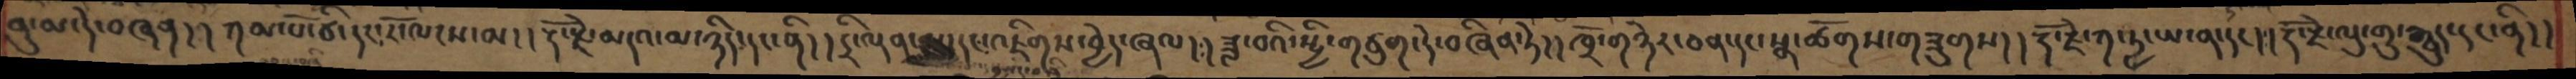ནུ་མ་དེ་བཞན། །ཀམ་པོ་ཙི་དང་རོ་ལངས་མ། །རྡོ་རྗེ་མདའ་མ་ཉིད་དང་ནི། །དྲི་ལྡན་མ་དང་འཇིགས་བྱེད་ཞལ། །ཟླ་བའི་སྤྱི་གཙུག་དེ་བཞིན་ཏེ། །ཁྲོ་གཉེར་ཅན་དང་སྣ་ཚོགས་གཟུགས། །རྡོ་རྗེ་ཀ་ཏྱ་ཡ་ན་དང། །རྡོ་རྗེ་ལུ་གུ་རྒྱུད་དང་ནི།།
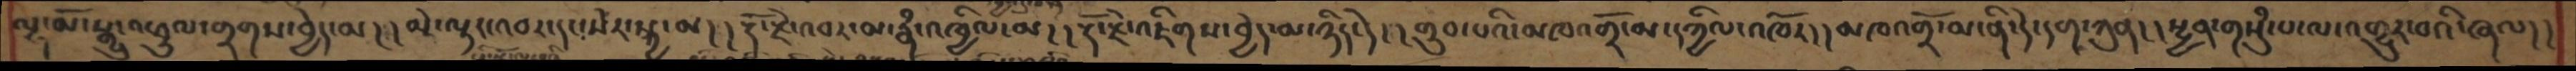ལྷ་མོ་སྒྱུ་འཕྲུལ་གྲགས་བྱེད་མ། །མེ་ལྟར་འབར་དང་སེར་སྐྱ་མ། །རྡོ་རྗེ་འབར་མ་རྣཾ་འཁྱིལ་མ། །རྡོ་རྗེ་འཇིགས་བྱེད་མ་ཉིད་དེ། །གྲུབ་པའི་མཁའགྲོ་མ་དཀྱིལ་འཁོར། །མཁའགྲོ་མ་ནི་དེ་དག་ཀུན། །སྤྱན་གསུཾ་པ་ལ་འགྱུར་བའི་ཞལ།།
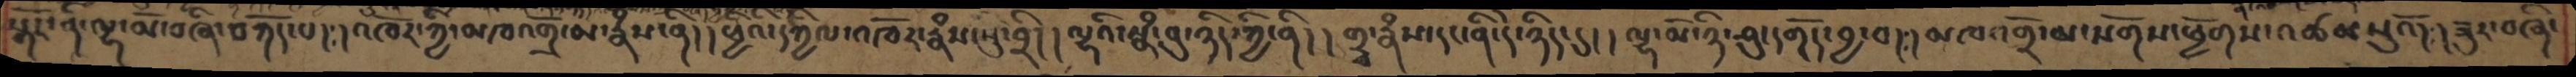སྒོར་ནི་ལྷ་མོ་བཞི་བཀོད་པ། །འཁོར་ཀྱི་མཁའགྲོ་མ་རྣཾས་ནི། །ཕྱིའི་དཀྱིལ་འཁོར་རྣཾས་སུ་བྲི། །ལྷའི་སྣཾ་བུ་ཉིད་ཀྱི་ནི། །གྲྭ་རྣཾས་དང་ནི་དེ་ཉིད་དུ། །ལྷ་མོ་ཉི་ཤུ་དགོད་བྱ་བ། །མཁའགྲོ་མ་སོགས་ཕྱོགས་འཚམསུའོ། །ཟུར་བཞི་
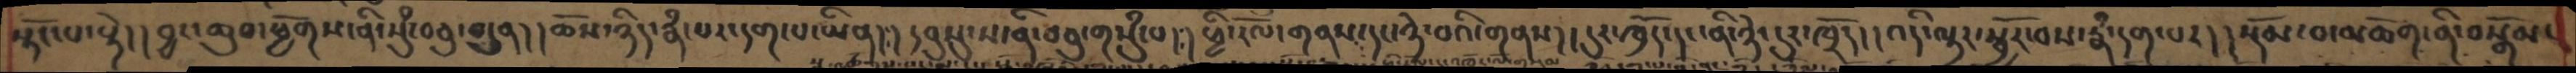སྟོང་པ་སྟེ། །བྱང་ཆུབ་ཕྱོགས་ནི་སུཾ་བཅུ་བདུན། །ཆོས་ཉིད་རྣྃ་པར་དག་པ་ཡིན། །དབུསུ་ས་ནི་བཅུ་གསུཾ་པ། །ཕྱི་རོལ་གནས་དང་ཉེ་བའི་གནས། །དུར་ཁྲོད་དང་ནི་ཉེ་དུར་ཁྲོད། །འདི་ལྟར་སྦྱོར་བས་རྣཾ་དག་པར། །སྡོམ་བ་མཆོག་ནི་བསྒོམ་
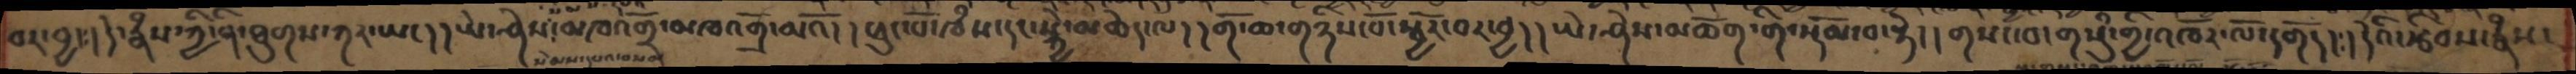བར་བྱ། །དེ་རྣཾས་ཀྱི་ནི་ཐུགས་ཀར་ཡང། །ཡེ་ཤེས་མཁའགྲོ་མཁའགྲོ་མའོ། །ཕུང་པོ་ཁཾས་དང་སྐྱེ་མཆེད་ལ། །གོ་ཆ་གཉིས་པོ་སྦྱོར་བར་བྱ།།ཡེ་ཤེས་མཆོག་གི་སྡོམ་བ་སྟེ། །གསང་བ་གསུཾ་གྱི་འཁོར་ལོ་དགོད། །དེའི་རྩིབས་རྣཾས་
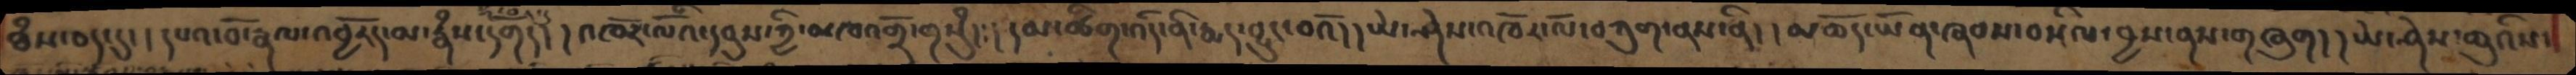ཐཾས་ཅད་དུ། །དཔའ་བོ་རྣལ་འབྱོརད་མ་རྣཾས་དགོད། །འཁོར་ལོའི་དབུས་ཀྱི་མཁའགྲོ་གསུཾ། །དམ་ཚིག་འདི་ནི་རྨད་བྱུང་བའོ། །ཡེ་ཤེས་འཁོར་ལོ་བཀུག་ནས་ནི། །མཆོད་ཡོན་ཞབས་བསིལ་བྱས་ནས་གཞུག། །ཡེ་ཤེས་ཆུའིས་
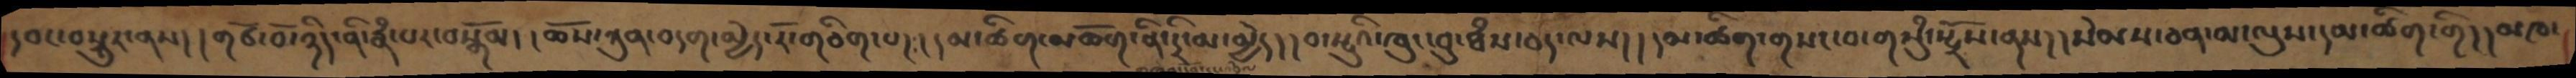དབང་བསྐུར་ནས། །གཙོ་བོ་ཉིད་ནི་རྣཾ་པར་བསྒོམ། །ཆོས་ཀུན་བདག་མྱེད་རོ་གཅིག་པ། །དམ་ཚིག་མཆོག་ནི་དྲི་མ་མྱེད། །བ་སྤུའི་ཁུང་བུ་ཐཾས་ཅད་ལས། །དམ་ཚིག་གསང་བ་གསུཾ་སྤྲོས་ནས། །སེམས་ཅན་མ་ལུས་དམ་ཚིག་གི། །མཁ་
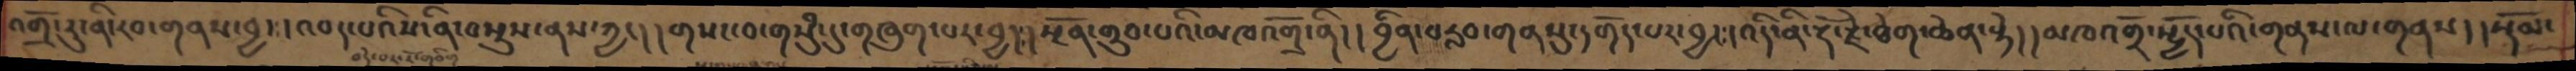འགྲོ་རུ་ནི་རབ་གནས་བྱ། །འབད་པའིས་ནི་བསྡུས་ནས་ཀྱང། །གསང་བ་གསུཾ་དུ་གཞུག་པར་བྱ། །སྔོན་གྲུབ་པའི་མཁའགྲོ་ནི། །བྱིན་བརླབ་གནསུ་དགོད་པར་བྱ། །འདི་ནི་རྡོ་རྗེ་ཐེག་ཆེན་སྟེ། །མཁའགྲོ་སྤྱོད་པའི་གནས་ལ་གནས། །སྡོམ་
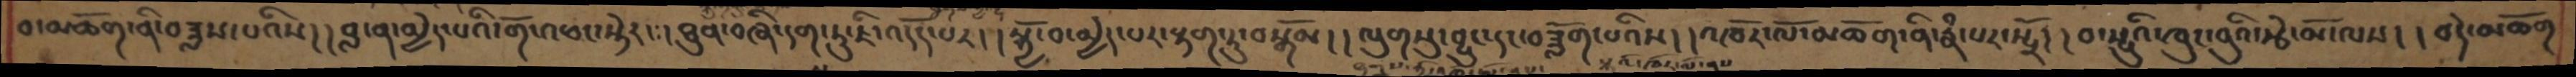བ་མཆོག་ནི་བཟླས་པའིས། །བླ་ན་མྱེད་པའི་གོ་འཕང་སྟེར། །ཐུན་བཞི་དག་ཏུ་ཇི་འདོད་པར། །སྐྱོ་བ་མྱེད་པར་རྟག་ཏུ་བསྒོམ། །ལུགསུ་བྱུང་དང་བཟློག་པའིས། །འཁོར་ལོ་མཆོག་ནི་རྣྃ་པར་སྤྲོ། །བ་སྤུའི་ཁུང་བུའི་རྩེ་མོ་ལས། །བདེ་མཆོག
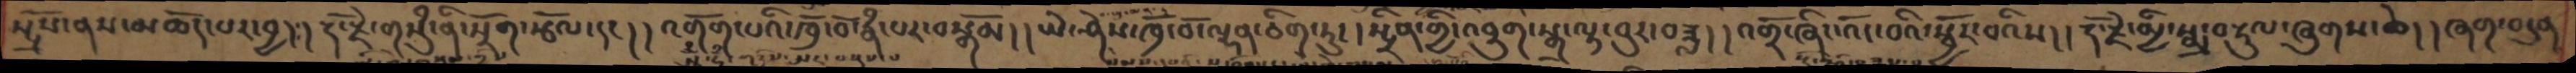སྤྲོས་ནས་མཆོད་པར་བྱ། །རྡོ་རྗེ་གསུཾ་ནི་སྲོག་རྩོལ་དང། །འགོག་པའི་ཁྲོ་བོ་རྣཾ་པར་བསྒོམ། །ཡེ་ཤེས་ཁྲོ་བོ་ལྷན་ཅིག་ཏུ། །སྤྲིན་གྱི་འབྲུག་སྒྲ་ལྟ་བུར་བཟླ། །འགྲོ་ཞིང་འོང་བའི་སྦྱོར་བའིས། །རྡོ་རྗེ་མྱི་སྨྲ་བརྟུལ་ཞུགས་ཆེ། །ཞག་བདུན
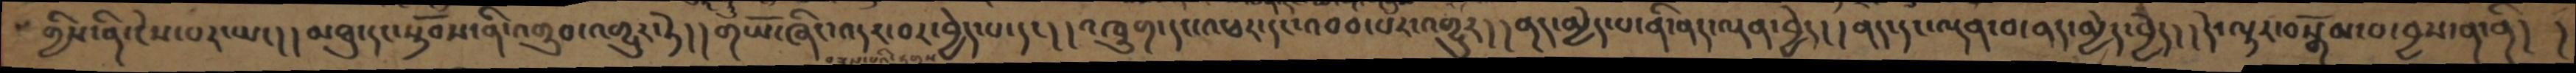གྱིས་ནི་ངེས་པར་ཡང། །མཐུ་དང་སྟོབས་ནི་འགྲུབ་འགྱུར་ཏེ། །གཡོ་ཞིང་འདར་བར་བྱེད་པ་དང། །འཁྲུག་དང་འཕར་དང་འབབ་པར་འགྱུར། །ནད་མྱེད་པ་ནི་ནད་ལྡན་བྱེད། །ནད་དང་ལྡན་བ་ནད་མྱེད་བྱེད། །དེ་ལྟར་བསྒོམ་བ་བྱས་ན་ནི། །
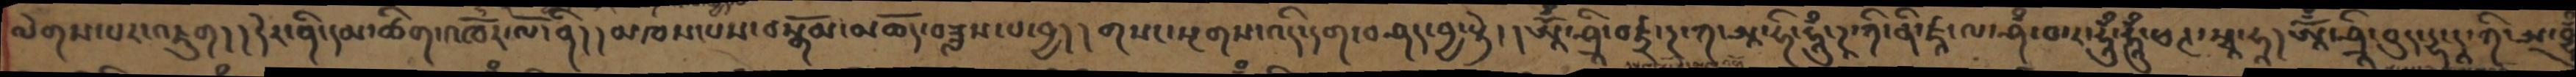ལེགས་པར་འཇུག། །དེར་ནི་དམ་ཚིག་འཁོར་ལོ་ནི། །མཁས་པས་བསྒོམ་མཆོད་བཟླས་པ་བྱ། །གསང་སྔགས་འདི་དག་བཤད་བྱ་སྟེ། །ཨཱོྃ་ཤྲི་བཛྲ་ཌ་ཀ་ཨཱ་ཧི་ཧཱུྃ་ཌཱ་ཀི་ནི་ཛཱ་ལ་ཤཾ་བ་ར་ཧཱུྃ་ཧཱུྃ་ཕཊ་སྭཱ་ཧཱ། ཨཱོྃ་ཤྲི་བུད་དྷ་དཱ་ཀི་ཨ་བྷུྃ
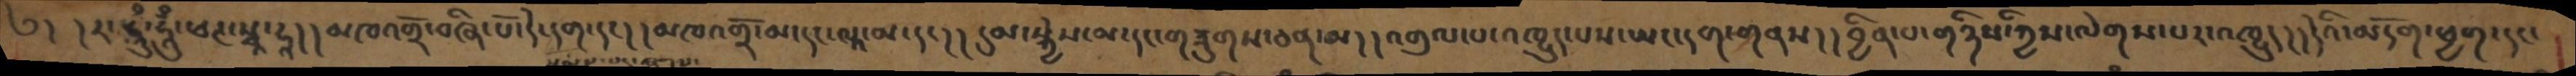༄། །ར་ཧཱུྃ་ཧཱུྃ་ཕཊ་སྭཱ་ཧཱ། །མཁའགྲོ་བཞི་པོ་དེ་དག་དང། །མཁའགྲོ་མ་དང་ལཱ་མ་དང། །དུམ་སྐྱེས་མ་དང་གཟུགས་ཅན་མ། །འགུལ་པ་འཁྱུད་པས་ཡང་དག་གནས། །བྱིན་པ་གཉིས་ཀྱིས་ལེགས་པར་འཁྱུད། །དེའི་མདོག་ཕྱག་དང་
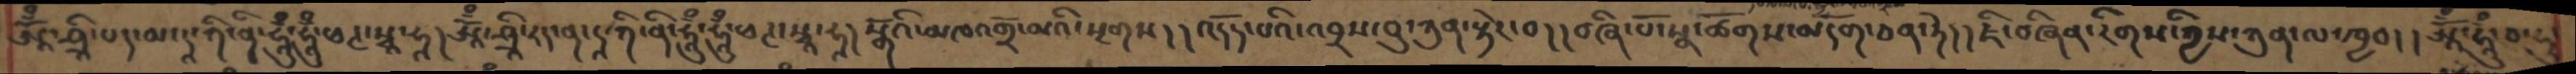ཨཱོྃ་ཤྲི་པད་མ་དཱ་ཀི་ཧཱུྃ་ཧཱུྃ་ཕཊ་སྭཱ་ཧཱ། ཨཱོྃ་ཤྲི་རད་ནཱ་དཱ་ཀི་ནི་ཧཱུྃ་ཧཱུྃ་ཕཊ་སྭཱ་ཧཱ། སྒོའི་མཁའགྲོ་མའི་སྔགས། །འདོད་པའི་འབྲས་བུ་ཀུན་སྡེར་བ། །བཞི་པོ་སྣ་ཚོགས་མདོག་ཅན་ཏེ། །ཇི་བཞིན་རིགས་ཀྱིས་ཀུན་ལ་ཁྱབ། །ཨཱོྃ་ཧཱུྃ་བ་དྷུ་
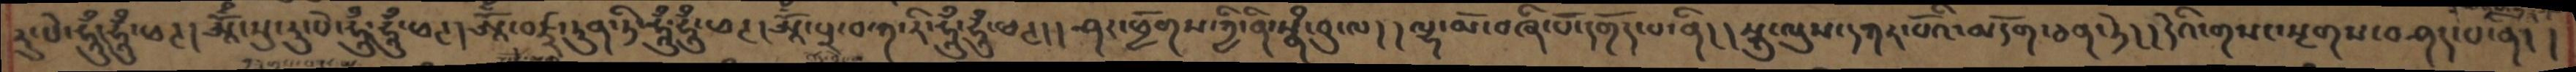རུ་པེ་ཧཱུྃ་ཧཱུྃ་ཕཊ། ཨཱོྃ་སུ་རུ་པེ་ཧཱུྃ་ཧཱུྃ་ཕཊ། ཨཱོྃ་བཛྲ་ཏུན་ཏི་ཧཱུྃ་ཧཱུྃ་ཕཊ། ཨཱོྃ་པྲ་བ་ཀ་རི་ཧཱུྃ་ཧཱུྃ་ཕཊ། །ཤར་ཕྱོགས་ཀྱི་ནི་སྣཾ་བུ་ལ། །ལྷ་མོ་བཞི་པོ་དགོད་པ་ནི། །སྐུ་ལུས་དཀར་པོའི་མདོག་ཅན་ཏེ། །དེའི་གསང་སྔགས་བཤད་པ་ནི། །
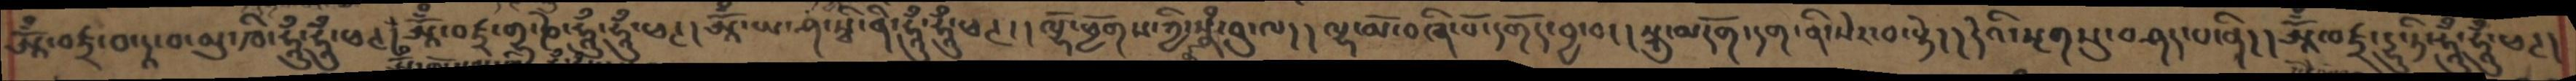ཨཱོྃ་བཛྲ་བ་དཱ་བ་མུ་ཁི་ཧཱུྃ་ཧཱུྃ་ཕཊ། ཨཱོྃ་བཛྲ་གྷ་ཎེ་ཧཱུྃ་ཧཱུཾ་ཕཊ། ཨཱོྃ་ཡ་ཤ་སྭི་ནི་ཧཱུྃ་ཧཱུྃ་ཕཊ། ལྷོ་ཕྱོགས་ཀྱི་སྣྃ་བུ་ལ། །ལྷ་མོ་བཞི་པོ་དགོད་བྱ་བ། །སྐུ་མདོག་དག་ནི་སེར་བ་སྟེ། །དེའི་སྔགསུ་བཤད་པ་ནི། །ཨཱོྃ་བཛྲ་དྷུ་ཏི་ཧཱུྃ་ཧཱུྃ་ཕཊ།
